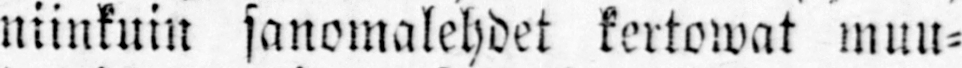niinkuin sanomalehdet kertowat muu-
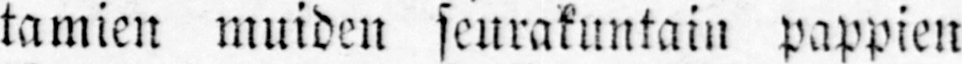tamien muiden seurakuntain pappien
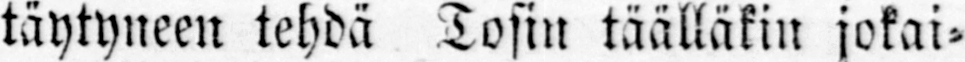täytyneen tehdä Tosin täälläkin jokai-
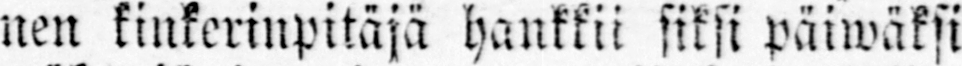nen kinkerinpitäjä hankkii siksi päiwäksi
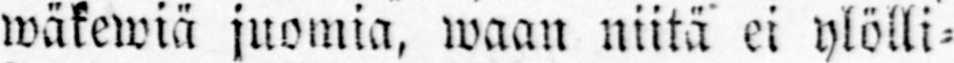wäkewiä juomia, waan niitä ei ylölli-
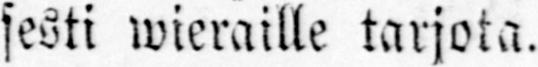sesti wieraille tarjota.
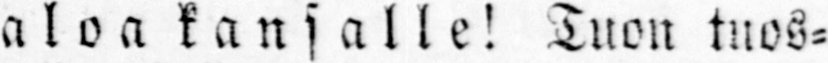Waloa kansalle! Tuon tuos-
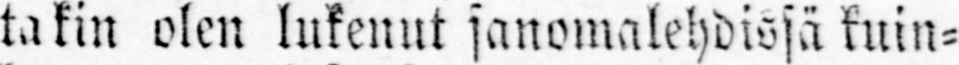takin olen lukenut sanomalehdissä kuin-
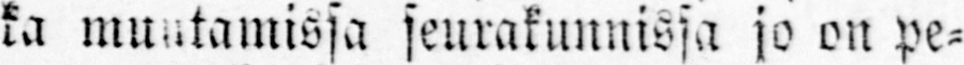ka muutamissa seurakunnissa jo on pe-
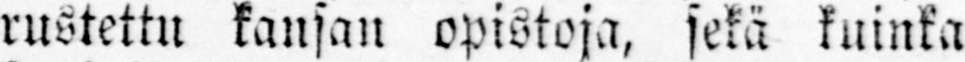rustettu kansan opistoja, sekä kuinka
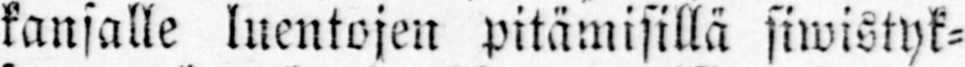kansalle luentojen pitämisillä siwistyk-
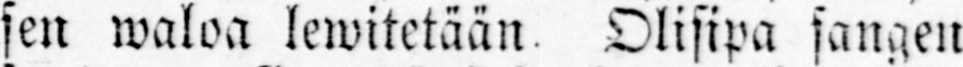sen waloa lewitetään Olisipa sangen
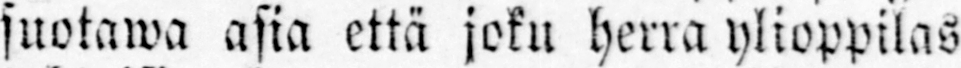suotawa asia että joku herra ylioppilas
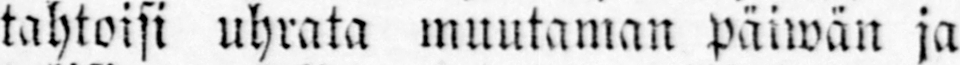tahtoisi uhrata muutaman päiwän ja
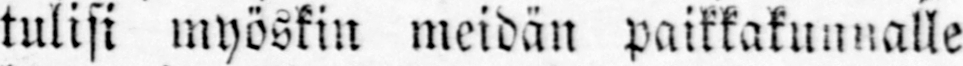tulisi myöskin meidän paikkakunnalle
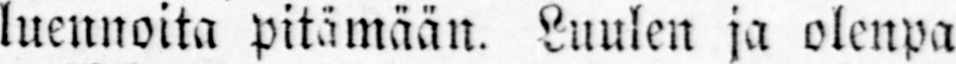luennoita pitämään. Luulen ja olenpa
